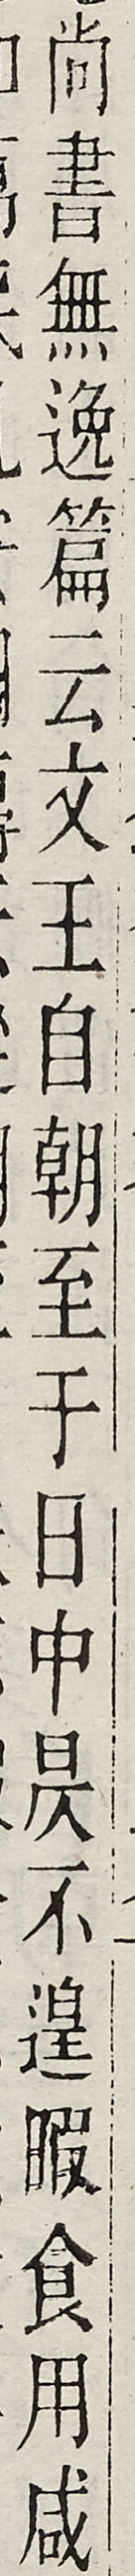尚書無逸篇云文王自朝至子日中昃不遑暇食用咸
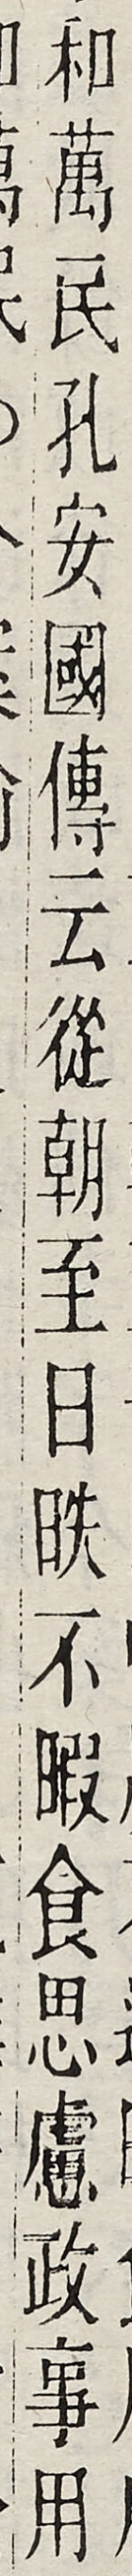和萬民孔安國傳云從朝至日映不瑕食思慮政事用
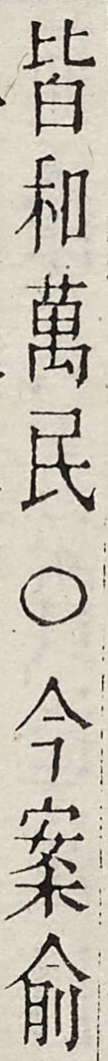相皆和萬民○今案俞
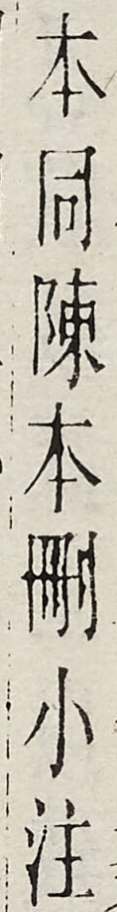本同陳本刪小注
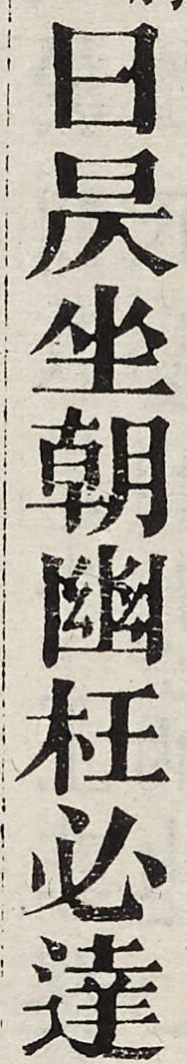日昃坐朝幽枉必達
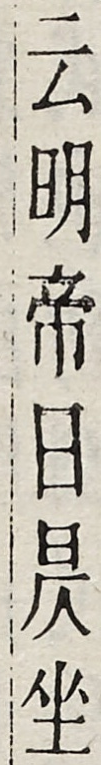云明帝日昃坐
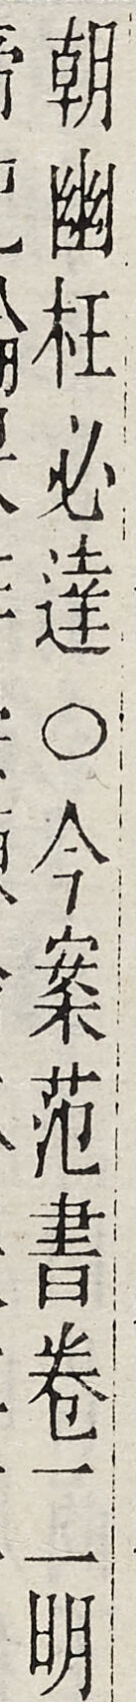朝幽枉必達○今案範書卷二明
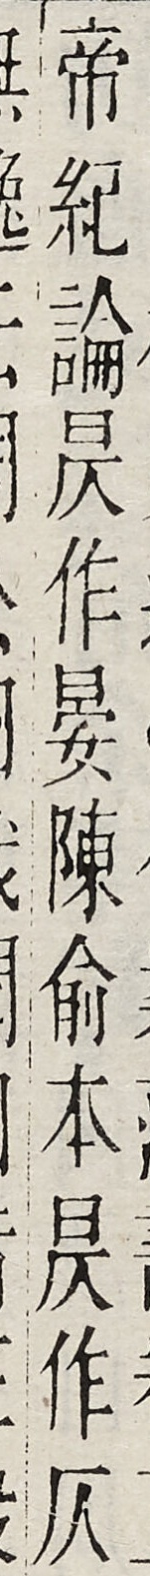帝紀論昃作晏陳俞本昃作仄
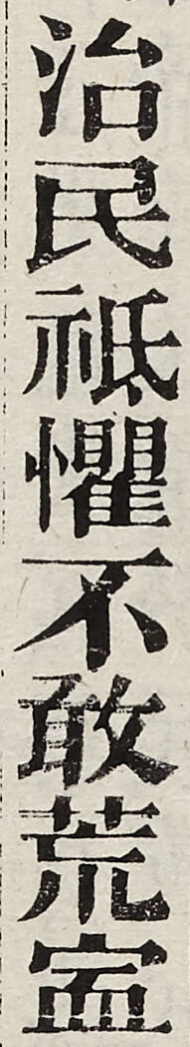治民祗懼不敢荒寍
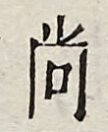尚
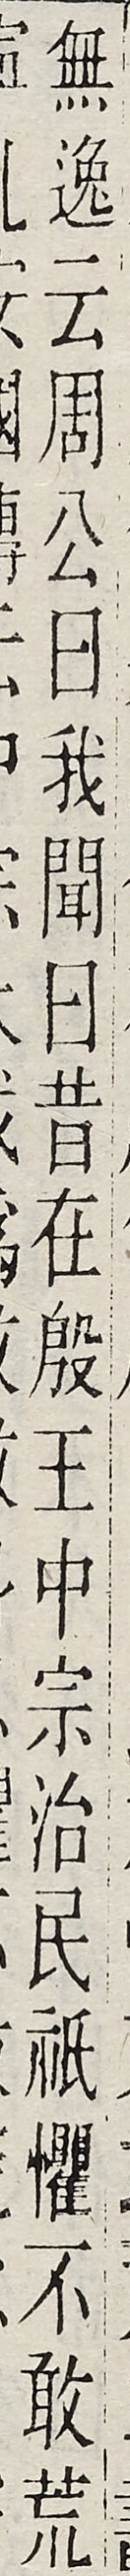無逸云周公曰我聞曰昔在殷正中宗治民祇懼不敢荒
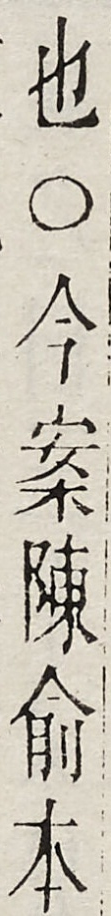也○今案陳俞本
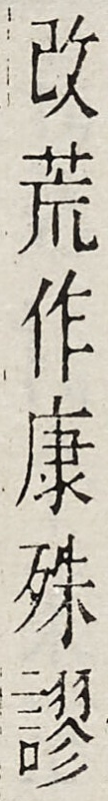改荒作康殊謬
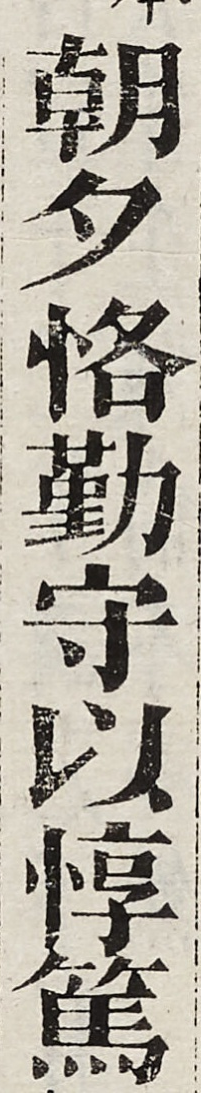朝夕恪勤守以敦篤
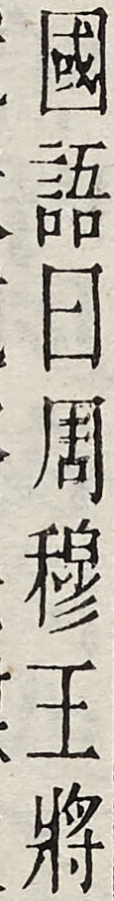國語曰周穆王將
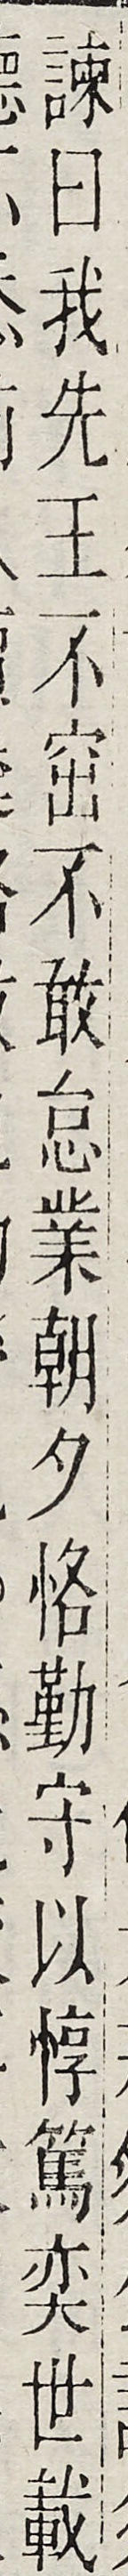諫曰我先三不窋不敢怠業朝夕咨勤守以敦篤奕世載
